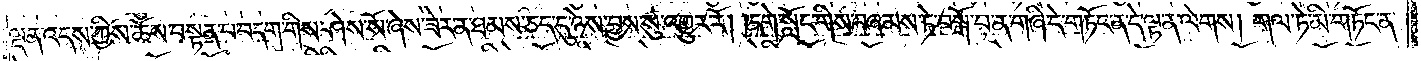ལྡན་འདས་ཀྱིས་ཆོས་བསྟན་པ་བདག་གིས་ཤེས་སོ་ཞེས་ཟེར་ན་ཐམས་ཅད་དུ་ཉེས་བྱས་སུ་འགྱུར་རོ། །དགེ་སློང་གིས་བཞམས་ཏེ་བསྒོ་བ་ན་གཞི་དེ་གཏོང་ན་དེ་ལྟ་ན་ལེགས། གལ་ཏེ་མི་གཏོང་ན་
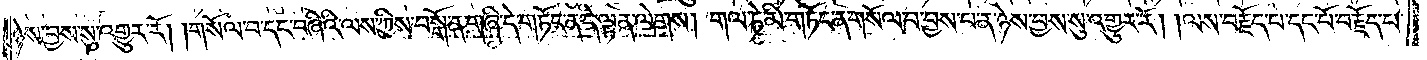ཉེས་བྱས་སུ་འགྱུར་རོ། །གསོལ་བ་དང་བཞིའི་ལས་ཀྱིས་བསྒོ་ན་གཞི་དེ་གཏོང་ན་དེ་ལྟན་ལེགས། གལ་ཏེ་མི་གཏོང་ན་གསོལ་བ་བྱས་པ་ན་ཉེས་བྱས་སུ་འགྱུར་རོ། །ལས་བརྗོད་པ་དང་པོ་བརྗོད་པ་
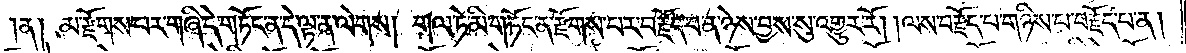ན། མ་རྫོགས་པར་གཞི་དེ་གཏོང་ན་དེ་ལྟ་ན་ལེགས། གལ་ཏེ་མི་གཏོང་ན་རྫོགས་པར་བརྗོད་པ་ན་ཉེས་བྱས་སུ་འགྱུར་རོ། །ལས་བརྗོད་པ་གཉིས་པ་བརྗོད་པ་ན།
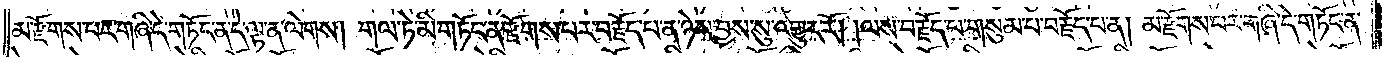མ་རྫོགས་པར་གཞི་དེ་གཏོང་ན་དེ་ལྟ་ན་ལེགས། གལ་ཏེ་མི་གཏོང་ན་རྫོགས་པར་བརྗོད་པ་ན་ཉེས་བྱས་སུ་འགྱུར་རོ། །ལས་བརྗོད་པ་གསུམ་པ་བརྗོད་པ་ན། མ་རྫོགས་པར་གཞི་དེ་གཏོང་ན་
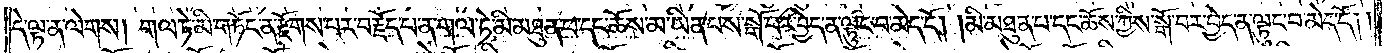དེ་ལྟ་ན་ལེགས། གལ་ཏེ་མི་གཏོང་ན་རྫོགས་པར་བརྗོད་པ་ན་གལ་ཏེ་མི་མཐུན་པ་དང་ཆོས་མ་ཡིན་པས་སྒོ་བར་བྱེད་ན་ལྟུང་བ་མེད་དོ། །མི་མཐུན་པ་དང་ཆོས་ཀྱིས་སྒོ་བར་བྱེད་ན་ལྟུང་བ་མེད་དོ། །
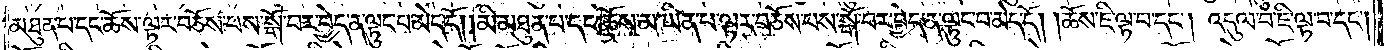མཐུན་པ་དང་ཆོས་ལྟར་བཅོས་པས་སྒོ་བར་བྱེད་ན་ལྟུང་བ་མེད་དོ། །མི་མཐུན་པ་དང་ཆོས་མ་ཡིན་པ་ལྟར་བཅོས་པས་སྒོ་བར་བྱེད་ན་ལྟུང་བ་མེད་དོ། །ཆོས་ཇི་ལྟ་བ་དང༌། འདུལ་བ་ཇི་ལྟ་བ་དང༌།
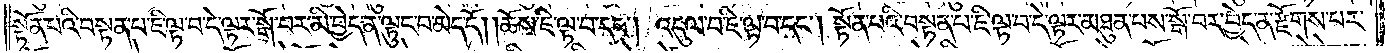སྟོན་པའི་བསྟན་པ་ཇི་ལྟ་བ་དེ་ལྟར་སྒོ་བར་མི་བྱེད་ན་ལྟུང་བ་མེད་དོ། །ཆོས་ཇི་ལྟ་བ་དང༌། འདུལ་བ་ཇི་ལྟ་བ་དང༌། སྟོན་པའི་བསྟན་པ་ཇི་ལྟ་བ་དེ་ལྟར་མཐུན་པས་སྒོ་བར་བྱེད་ན་རྫོགས་པར་
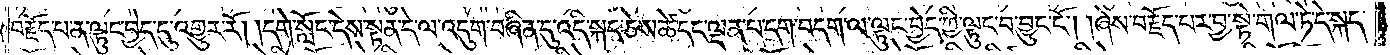བརྗོད་པ་ན་ལྟུང་བྱེད་དུ་འགྱུར་རོ། །དགེ་སློང་དེས་སྟན་དེ་ལ་འདུག་བཞིན་དུ་འདི་སྐད་ཅེས་ཚེ་དང་ལྡན་པ་དག་བདག་ལ་ལྟུང་བྱེད་ཀྱི་ལྟུང་བ་བྱུང་ངོ༌། །ཞེས་བརྗོད་པར་བྱ་སྟེ་གལ་ཏེ་དེ་སྐད་
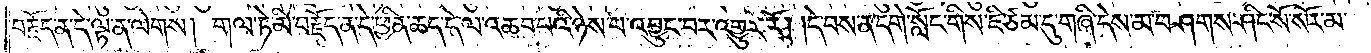བརྗོད་ན་དེ་ལྟ་ན་ལེགས། གལ་ཏེ་མི་བརྗོད་ན་དེ་ཕྱིན་ཆད་དེ་ལ་འཆབ་པའི་ཉེས་པ་འབྱུང་བར་འགྱུར་རོ། །དེ་བས་ན་དགེ་སློང་གིས་ཇི་ཙམ་དུ་གཞི་དེས་མ་བཤགས་ཤིང་སོ་སོར་མ་
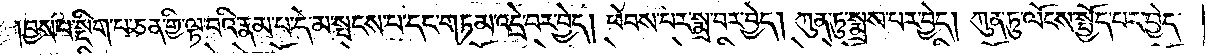བྱས་པ་སྡིག་པ་ཅན་གྱི་ལྟ་བའི་རྣམ་པ་དེ་མ་སྤངས་པ་དང་གཏམ་འདྲེ་བར་བྱེད། ཕེབས་པར་སྨྲ་བར་བྱེད། ཀུན་ཏུ་སྨྲས་པར་བྱེད། ཀུན་ཏུ་ལོངས་སྤྱོད་པར་བྱེད་
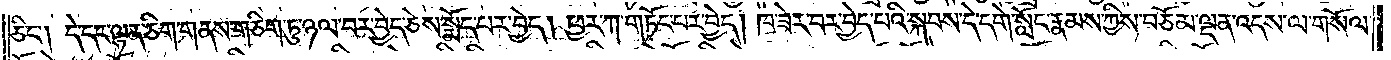ཅིང༌། དེ་དང་ལྷན་ཅིག་གནས་གཅིག་ཏུ་ཉལ་བར་བྱེད་ཅེས་སྨོད་པར་བྱེད། ཕྱར་ཀ་གཏོང་བར་བྱེད། ཁ་ཟེར་བར་བྱེད་པའི་སྐབས་དེ་དགེ་སློང་རྣམས་ཀྱིས་བཅོམ་ལྡན་འདས་ལ་གསོལ་
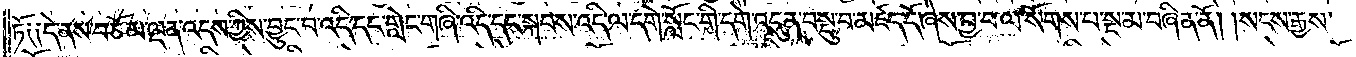ཏོ༑ ༑དེ་ནས་བཅོམ་ལྡན་འདས་ཀྱིས་བྱུང་བ་འདི་དང་གླེང་གཞི་འདི་དང་སྐབས་འདི་ལ་དགེ་སློང་གི་དགེ་འདུན་བསྡུ་བ་མཛད་དོ་ཞེས་བྱ་བ་ལ་སོགས་པ་སྔ་མ་བཞིན་ནོ། །སངས་རྒྱས་
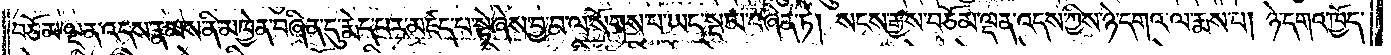བཅོམ་ལྡན་འདས་རྣམས་ནི་མཁྱེན་བཞིན་དུ་རྨེད་པར་མཛད་པ་སྟེ་ཞེས་བྱ་བ་ལ་སོགས་པ་ཡང་སྔ་མ་བཞིན་ཏེ། སངས་རྒྱས་བཅོམ་ལྡན་འདས་ཀྱིས་ཉེ་དགའ་ལ་རྨས་པ། ཉེ་དགའ་ཁྱོད་
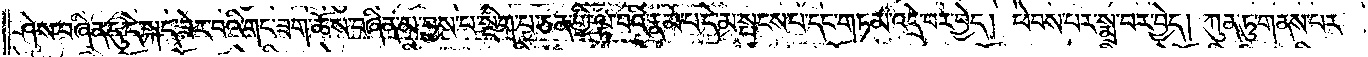ཤེས་བཞིན་དུ་དེ་སྐད་ཟེར་བའི་གང་ཟག་ཆོས་བཞིན་མ་བྱས་པ་སྡིག་པ་ཅན་གྱི་ལྟ་བའི་རྣམ་པ་དེ་མ་སྤངས་པ་དང་གཏམ་འདྲེ་བར་བྱེད། ཕེབས་པར་སྨྲ་བར་བྱེད། ཀུན་ཏུ་གནས་པར་
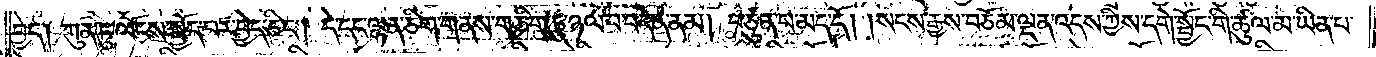བྱེད། ཀུན་ཏུ་ལོངས་སྤྱོད་པར་བྱེད་ཅིང༌། དེ་དང་ལྷན་ཅིག་གནས་གཅིག་ཏུ་ཉལ་བ་བདེན་ནམ། བཙུན་པ་མད་དོ། །སངས་རྒྱས་བཅོམ་ལྡན་འདས་ཀྱིས་དགེ་སྦྱོང་གི་ཚུལ་མ་ཡིན་པ་
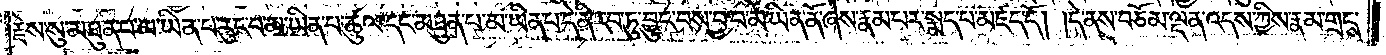རྗེས་སུ་མཐུན་པ་མ་ཡིན་པ་རུང་བ་མ་ཡིན་པ་ཚུལ་དང་མཐུན་པ་མ་ཡིན་པ་དེ་ནི་རབ་ཏུ་བྱུང་བས་བྱ་བ་མ་ཡིན་ནོ་ཞེས་རྣམ་པར་སྨད་པ་མཛད་དོ། །དེ་ནས་བཅོམ་ལྡན་འདས་ཀྱིས་རྣམ་གྲངས་
